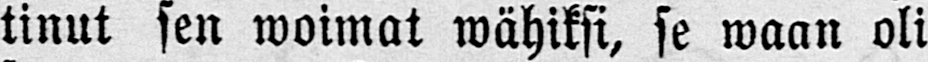tinut sen woimat wähiksi, se waan oli
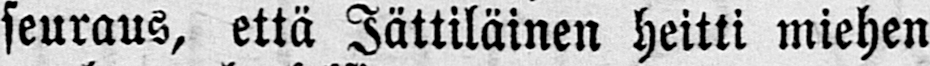seuraus, että Jättiläinen heitti miehen
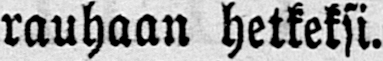rauhaan hetkeksi.
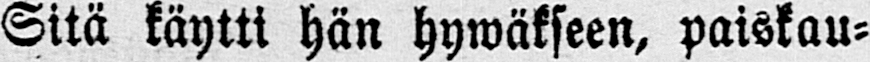Sitä käytti hän hywäkseen, paiskau-
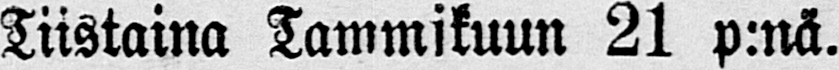Tiistaina Tammikuun 21 p:nä.
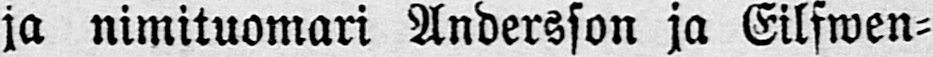ja nimituomari Andersson ja Eilfwen-
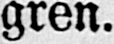grén.
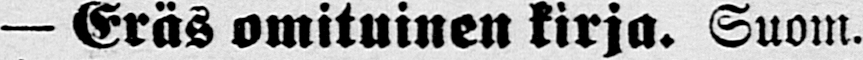— Eräs omituinen kirja. Suom.
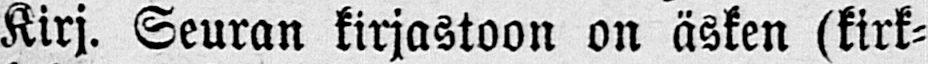Kirj. Seuran kirjastoon on äsken (kirk-
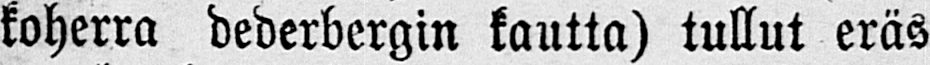koherra dederbergin kautta) tullut eräs
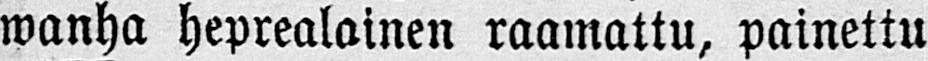wanha heprealainen raamattu, painettu
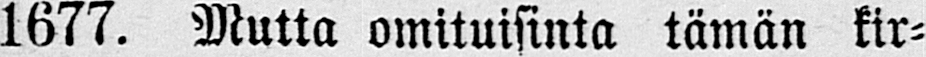1677. Mutta omituisinta tämän kir-
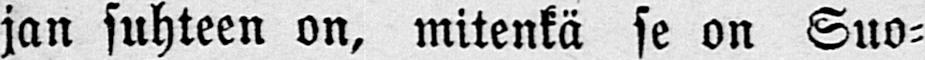jan suhteen on, mitenkä se on Suo-
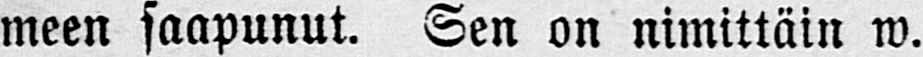meen saapunut. Sen on nimittäin w.
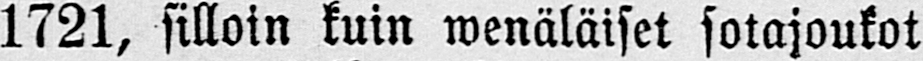1721, silloin kuin wenäläiset sotajoukot
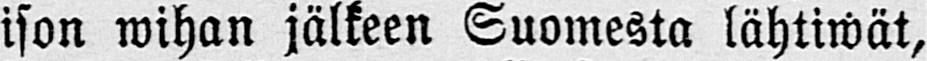ison wihan jälkeen Suomesta lähtiwät,
